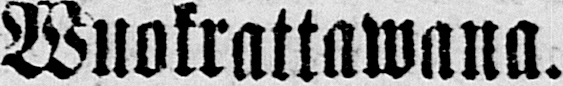Wuokattawana.
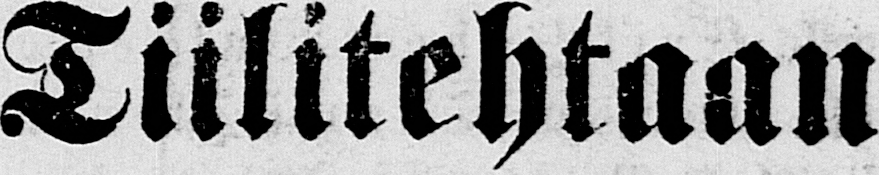Tiilitehtaan
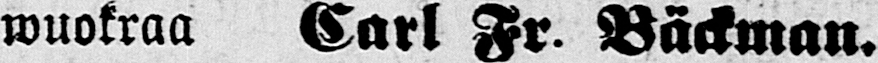wuokraa Carl Fr. Bä ckman.
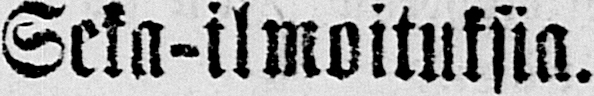Seka-ilmoituksia.
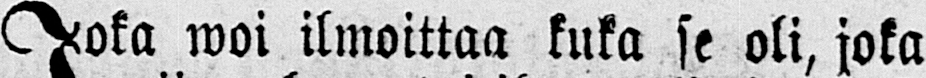Joka woi ilmoittaa kuka se oli, joka
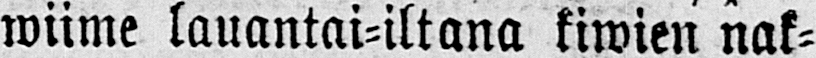wiime lauantai-iltana kiwien nak-
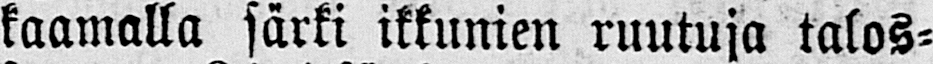kaamalla särki ikkunien ruutuja talos-
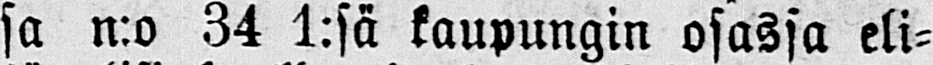sa n:o 34 1:sä kaupungin osassa eli-
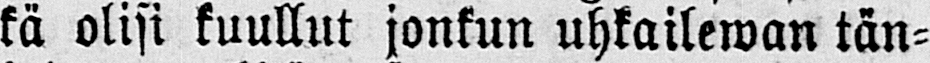kä olisi kuullut jonkun uhkailewan tän-
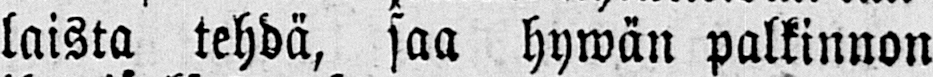laista tehdä, saa hywän palkinnon
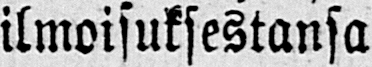ilmoisuksestansa
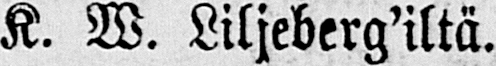K. W. Liljeberg'iltä.
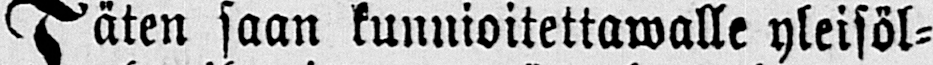T äten saan kunnioitettawelle yleisöl-
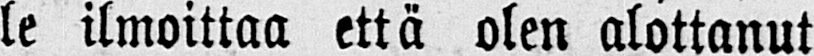le ilmoittaa että olen alottanut
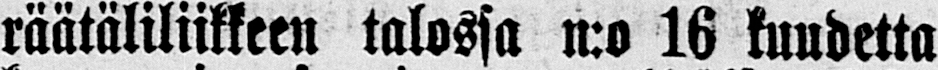räätäliliikkeen talossa n:o 16 kuudetta
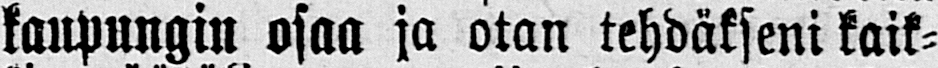kaupungin osaa ja otan tehdäkseni kaik-
